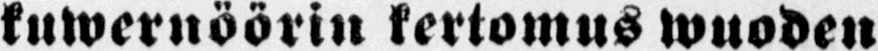kuwernöörin kertomus wuoden
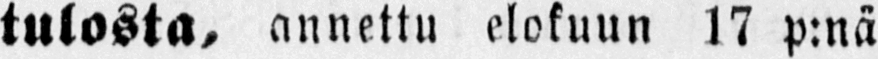tulosta, annettu elokuun 17 p:nä
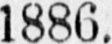1886.
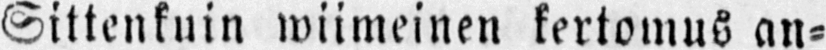Sittenkuin wiimeinen kertomus an-
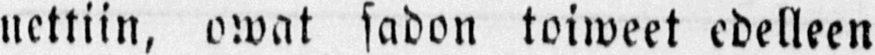nettiin, owat sadon toiweet edelleen
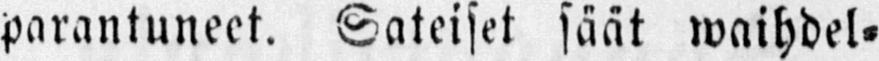parantuneet. Sateiset säät waihdel-
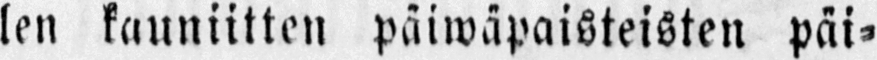len kauniitten päiwäpaisteisten päi-
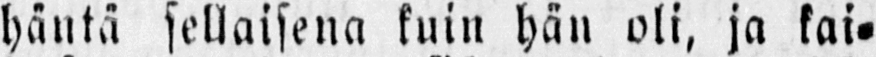häntä sellaisena kuin hän oli, ja kai-
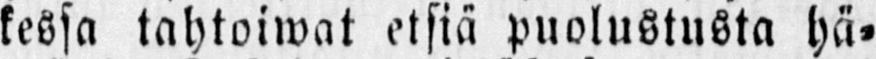kessa tahtoiwat etsiä puolustusta hä-
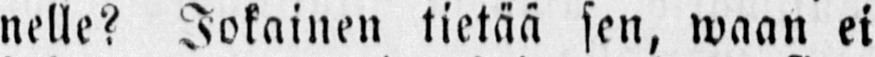nelle? Jokainen tietää sen, waan ei
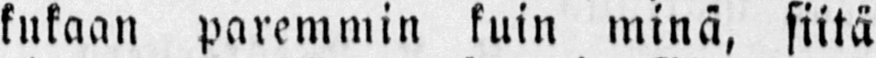kukaan paremmin kuin minä, siitä
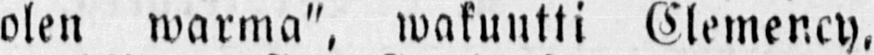olen warma", wakuutti Clemency,
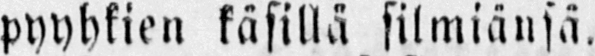pyyhkien käsillä silmiänsä.
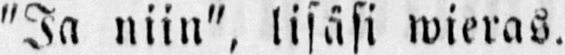"Ja niin", lisäsi wieras.
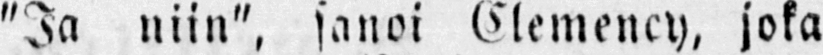"Ja niin", sanoi Clemency, joka
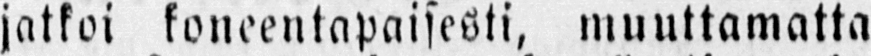jatkoi koneentapaisesti, muuttamatta
